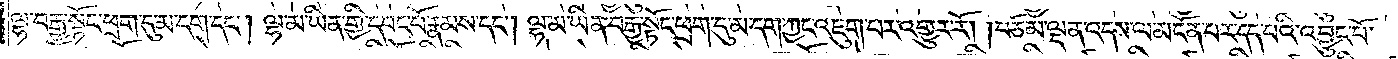ལྷ་བརྒྱ་སྟོང་ཕྲག་དུ་མ་དག་དང༌། ལྷ་མ་ཡིན་གྱི་དབང་པོ་རྣམས་དང༌། ལྷ་མ་ཡིན་བརྒྱ་སྟོང་ཕྲག་དུ་མ་དག་ཀྱང་འཇུག་པར་འགྱུར་རོ། །བཅོམ་ལྡན་འདས་ལ་མངོན་པར་དད་པའི་འབྱུང་པོ་
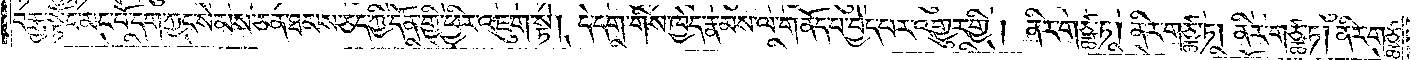བརྒྱ་སྟོང་མང་པོ་དག་ཀྱང་སེམས་ཅན་ཐམས་ཅད་ཀྱི་དོན་གྱི་ཕྱིར་འཇུག་སྟེ། དེ་དག་གིས་ཁྱེད་རྣམས་ལ་གནོད་པ་བྱེད་པར་འགྱུར་གྱི། ནིར་གཙྪ་ཏ། ནིར་གཙྪ་ཏ། ནིར་གཙྪ་ཏ། ནིར་གཙྪ་
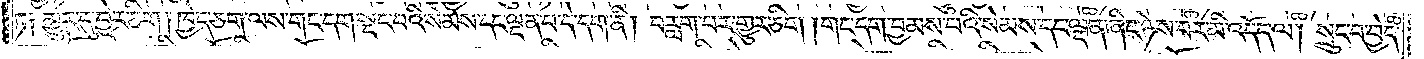ཏ༑ མྱུར་དུ་བྱེར་ཅིག །ཁྱེད་ཅག་ལས་གང་དག་སྡང་བའི་སེམས་དང་ལྡན་པ་དེ་དག་ནི། བརླག་པར་གྱུར་ཅིག །གང་དག་བྱམས་པའི་སེམས་དང་ལྡན་ཞིང་ཉེས་པར་མི་འདོད་ལ། སྲུང་བ་བྱེད་
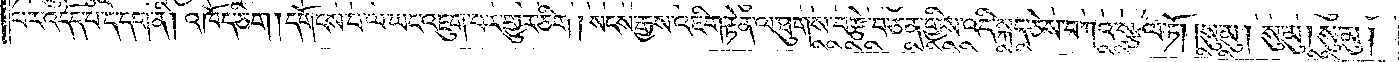པར་འདོད་པ་དེ་དག་ནི། འཁོད་ཅིག །དགོངས་པ་ལ་ཡང་འཇུག་པར་གྱུར་ཅིག །སངས་རྒྱས་འཇིག་རྟེན་ལ་ཐུགས་བརྩེ་བ་ཅན་གྱིས་འདི་སྐད་ཅེས་བཀའ་སྩལ་ཏོ། །སུ་མུ། སུ་མུ། སུ་མུ།
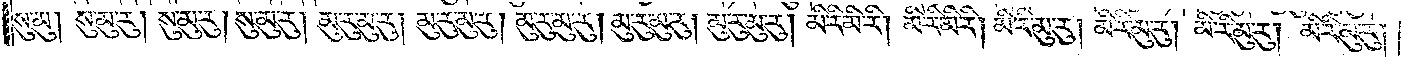སུ་མུ། སུ་མུ་རུ། སུ་མུ་རུ། སུ་མུ་རུ། མུ་རུ་མུ་རུ། མུ་རུ་མུ་རུ། མུ་རུ་མུ་རུ། མུ་རུ་མུ་རུ། མུ་རུ་མུ་རུ། མི་རི་མི་རི། མི་རི་མི་རི། མི་རི་མུ་རུ། མི་རི་མུ་རུ། མི་རི་མུ་རུ། མི་རི་མུ་རུ།
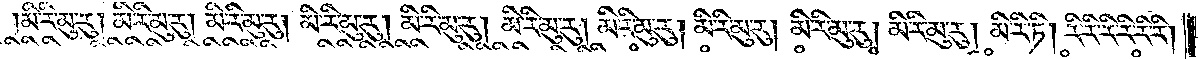མི་རི་མུ་རུ། མི་རི་མུ་རུ། མི་རི་མུ་རུ། མི་རི་མུ་རུ། མི་རི་མུ་རུ། མི་རི་མུ་རུ། མི་རི་མུ་རུ། མི་རི་མུ་རུ། མི་རི་མུ་རུ། མི་རི་མུ་རུ། མི་རི་ཏི། རི་རི་རི་རི་རི་རི།
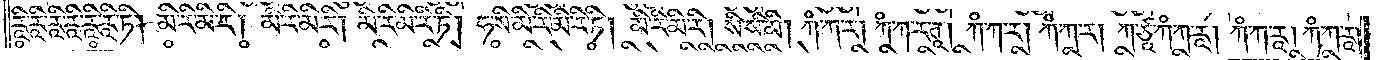རཱི་རཱི་རཱི་རཱི་རཱི་རཱི་ཏི། མི་རི་མི་རི། མི་རི་མི་རི། མི་རི་མི་རི་ཏི། ཧ་སི་མི་རི་མི་རི་ཏི། མི་རི་མི་རི། སི་སི་མི། ཀཾ་ཀ་ར། ཀཾ་ཀ་ར། ཀཾ་ཀ་ར། ཀཾ་ཀ་ར། ཀ་ཙཱ་ཀཾ་ཀ་རཱ། ཀཾ་ཀ་རཱ། ཀཾ་ཀ་རཱ།
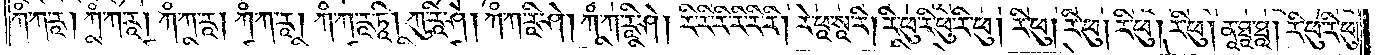ཀཾ་ཀ་རཱ། ཀཾ་ཀ་རཱ། ཀཾ་ཀ་རཱ། ཀཾ་ཀ་རཱ། ཀཾ་ཀ་རཱ་ཏཱི། ཀུ་རཱི་ཤེ། ཀཾ་ཀ་རཱི་ཤེ། ཀཾ་ཀ་རཱི་ཤེ། རི་རི་རི་རི་རི་རི། རེ་ཕཱ་སཱ་རི། རི་ཕུ་རི་ཕུ་རི་ཕུ། རི་ཕུ། རི་ཕུ། རི་ཕུ། རི་ཕུ། ནཱ་ཐཱ་ཐཱ། རི་ཕུ་རི་ཕུ།
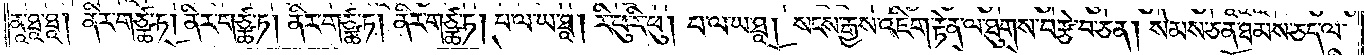ནཱ་ཐཱ་ཐཱ། ནིར་གཙྪ་ཏ། ནིར་གཙྪ་ཏ། ནིར་གཙྪ་ཏ། ནིར་གཙྪ་ཏ། པ་ལ་ཡ་ཐཱ། རི་ཕུ་རི་ཕུ། པ་ལ་ཡ་ཐཱ། སངས་རྒྱས་འཇིག་རྟེན་ལ་ཐུགས་བརྩེ་བ་ཅན། སེམས་ཅན་ཐམས་ཅད་ལ་
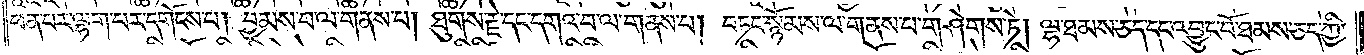ཕན་པར་ལྷག་པར་དགོངས་པ། བྱམས་པ་ལ་གནས་པ། ཐུགས་རྗེ་དང་དགའ་བ་ལ་གནས་པ། བཏང་སྙོམས་ལ་གནས་པ་གཤེགས་ཏེ། ལྷ་ཐམས་ཅད་དང་འབྱུང་པོ་ཐམས་ཅད་ཀྱི་
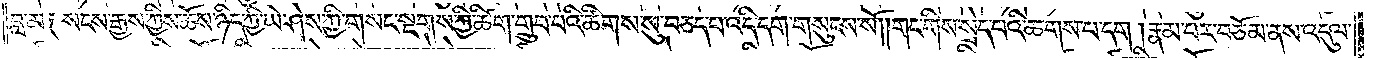བླ་མ༑ སངས་རྒྱས་ཀྱིས་ཆོས་ཉིད་ཀྱི་ཡེ་ཤེས་ཀྱི་གསང་སྔགས་ཀྱི་ཚིག་གྲུབ་པའི་ཚིགས་སུ་བཅད་པ་འདི་དག་གསུངས་སོ། །གང་གིས་སྲེད་པའི་ཆགས་པ་དག། རྣམ་པར་བཅོམ་ནས་འདུལ་
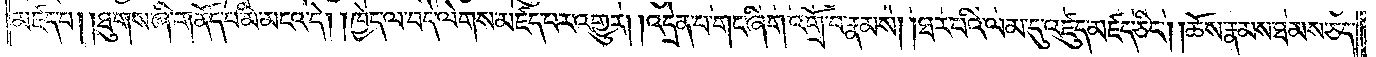མཛད་པ། །ཐུགས་ཞི་གནོད་པ་མི་མངའ་དེ། །ཁྱེད་ལ་བདེ་ལེགས་མཛད་པར་འགྱུར། །འདྲེན་པ་གང་ཞིག་འགྲོ་བ་རྣམས། །ཐར་པའི་ལམ་དུ་འཛུད་མཛད་ཅིང༌། །ཆོས་རྣམས་ཐམས་ཅད་
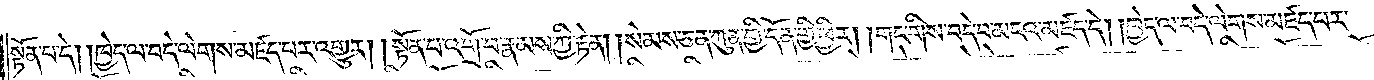སྟོན་པ་དེ། །ཁྱེད་ལ་བདེ་ལེགས་མཛད་པར་འགྱུར། །སྟོན་པ་འགྲོ་བ་རྣམས་ཀྱི་རྟེན། །སེམས་ཅན་ཀུན་གྱི་དོན་གྱི་ཕྱིར། །གང་གིས་བདེ་བ་མངའ་མཛད་དེ། །ཁྱེད་ལ་བདེ་ལེགས་མཛད་པར་
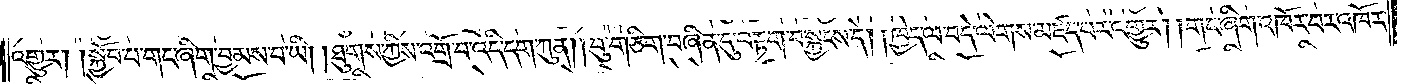འགྱུར། །སྐྱོབ་པ་གང་ཞིག་བྱམས་པ་ཡི། །ཐུགས་ཀྱིས་འགྲོ་བ་འདི་དག་ཀུན། །བུ་གཅིག་བཞིན་དུ་བརྟག་བསྐྱངས་དེ། །ཁྱེད་ལ་བདེ་ལེགས་མཛད་པར་འགྱུར། །གང་ཞིག་འཁོར་བར་འཁོར་
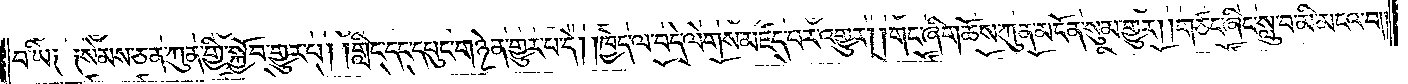བ་ཡི༑ ༑སེམས་ཅན་ཀུན་གྱི་སྐྱོབ་གྱུར་པ། །གླིང་དང་དཔུང་གཉེན་གྱུར་པ་དེ། །ཁྱེད་ལ་བདེ་ལེགས་མཛད་པར་འགྱུར། །གང་ཞིག་ཆོས་ཀུན་མངོན་སུམ་གྱུར། །གཙང་ཞིང་སླུ་བ་མི་མངའ་བ༎
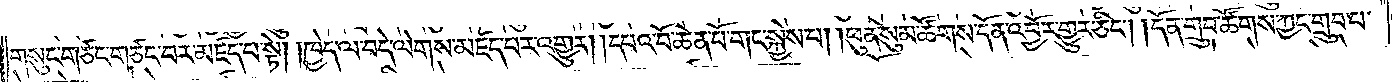གསུང་གཙང་གཙང་བར་མཛད་པ་སྟེ། །ཁྱེད་ལ་བདེ་ལེགས་མཛད་པར་འགྱུར། །དཔའ་བོ་ཆེན་པོ་གང་སྐྱེས་པ། །ཕུན་སུམ་ཚོགས་དོན་འབྱོར་གྱུར་ཅིང༌། །དོན་གྲུབ་ཚོགས་ཀྱང་གྲུབ་པ་
